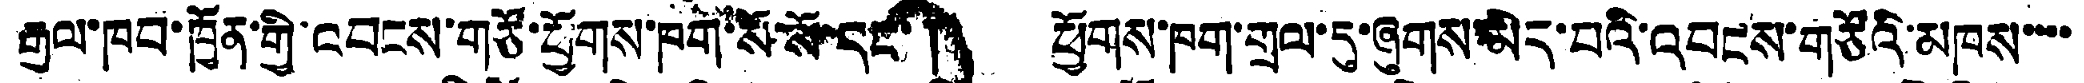རྒྱལ་ཁབ་ཁྱོན་གྱི་འབངས་གཙོ་ཕྱོགས་ཁག་སོ་སོ་དང་། ཕྱོགས་ཁག་གྲལ་དུ་ཞུགས་མེད་པའི་འབངས་གཙོའི་མཁས་་་་
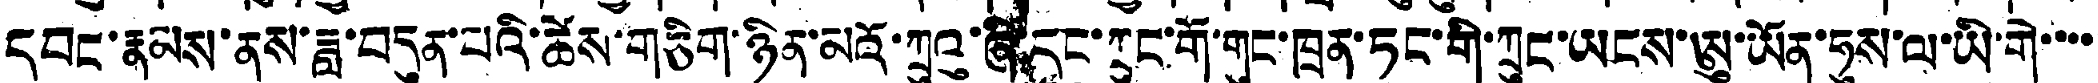དབང་རྣམས་ནས་ཟླ་བདུན་པའི་ཚེས་གཅིག་ཉིན་མའོ་ཀྲུའུ་ཞི་དང་ཀྲུང་གོ་གུང་ཁྲན་ཏང་གི་ཀྲུང་ཡངས་ཨུ་ཡོན་ཧུས་ལ་ཡི་གེ་་་་
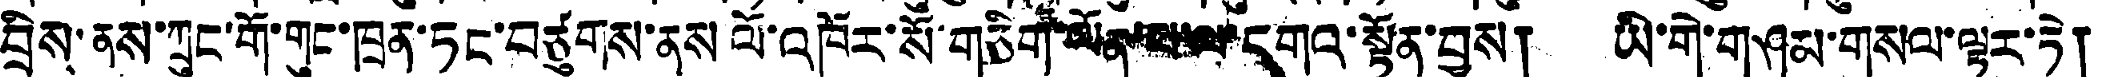བྲིས་ནས་ཀྲུང་གོ་གུང་ཁྲན་ཏང་བཙུགས་ནས ལོ་འཁོར་སོ་གཅིག་ལོན་པ་ལ་དགའ་སྟོན་བྱས། ཡི་གེ་གཤམ་གསལ་ལྟར་ཏེ།
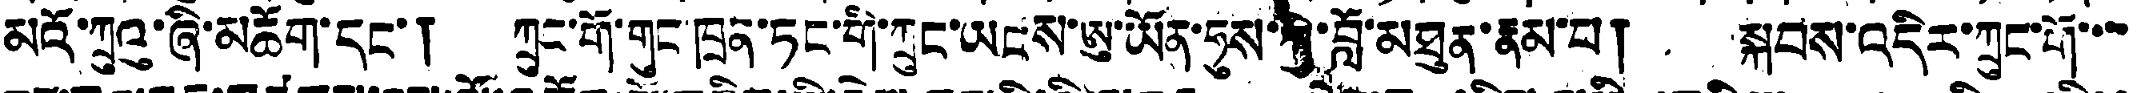མའོ་ཀྲུའུ་ཞི་མཆོག་དང་། ཀྲུང་གོ་གུང་ཁྲན་ཏང་གི་ཀྲུང་ཡངས་ཨུ་ཡོན་ཧུས་ཀྱི་བློ་མཐུན་རྣམ་པ། སྐབས་འདིར་ཀྲུང་གོ་་་་
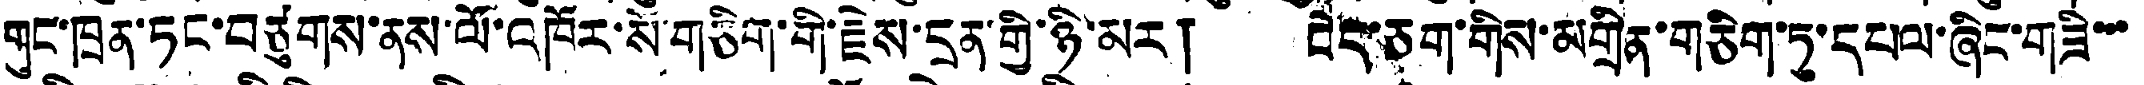གུང་ཁྲན་ཏང་བཙུགས་ནས་ལོ་འཁོར་ས་གཅིག་གི་རྗེས་དྲན་གྱི་ཉི་མར། བེད་ཅག་གིས་མགྲིན་གཅིག་ཏུ་དཔལ་ཞིང་གཟི་་་
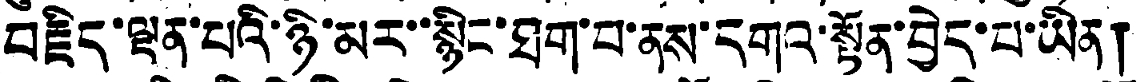བརྗིད་ལྡན་པའི་ཉི་མར་་སྙིང་ཐག་པ་ནས་དགའ་སྟོན་བྱེད་པ་ཡིན།
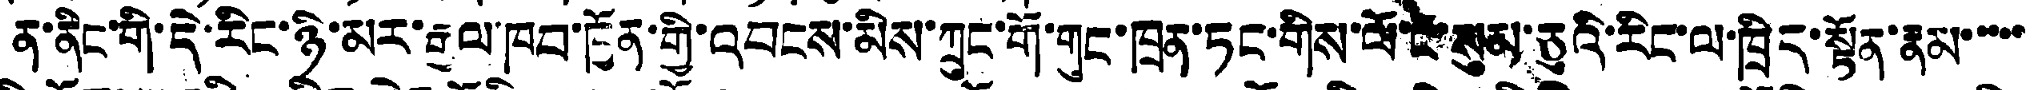ན་ནིང་གི་དེ་རིང་ཉི་མར་རྒྱལ་ཁབ་ཁྱོན་གི་འབངས་མིས་ཀྲུང་གོ་གུང་ཁྲན་ཏང་གིས་ལོ་ངོ་སུམ་ཅུའི་རིང་ལ་ཁྲིད་སྟོན་རྣམ་་་་་
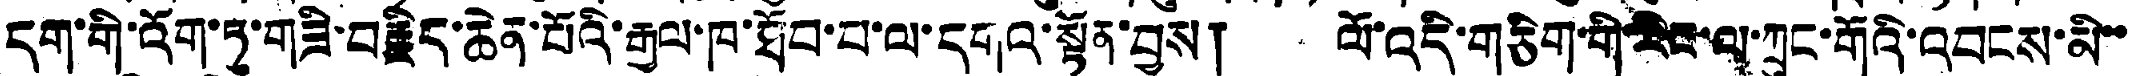དག་གི་འོག་ཏུ་གཟི་བརྗིད་ཆེན་པོའི་རྒྱལ་ཁ་ཐོབ་པ་ལ་དགའ་སྟོན་བྱས། ལོ་འདི་གཅིག་གི་རིང་ལ་ཀྲུང་གོའི་འབངས་མི་་
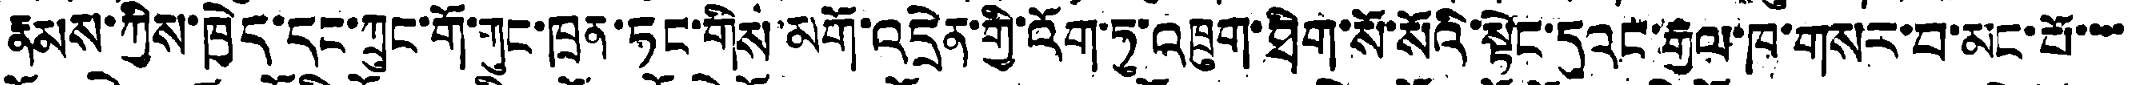རྣམས་ཀྱིས་ཁྱེད་དང་ཀྲུང་གོ་གུང་ཁྲན་ཏང་གིས་མགོ་འདྲེན་གྱི་འོག་ཏུ་འཁྲུག་ཐིག་སོ་སོའི་སྟེང་དུའང་རྒྱལ་ཁ་གསར་བ་མང་པོ་་་་
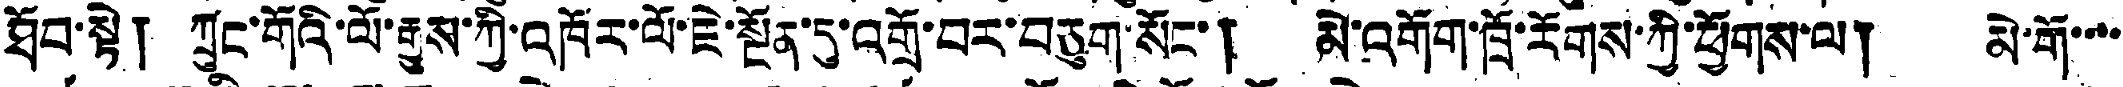ཐོབ་སྟེ། ཀྲུང་གོའི་ལོ་རྒྱུས་ཀྱི་འཁོར་ལོ་ཇེ་སྔོན་དུ་འགྲོ་བར་བཅུག་སོང་། མེ་འགོག་ཁྲོ་རོགས་ཀྱི་ཕྱོགས་ལ། མེ་གོ་་་་
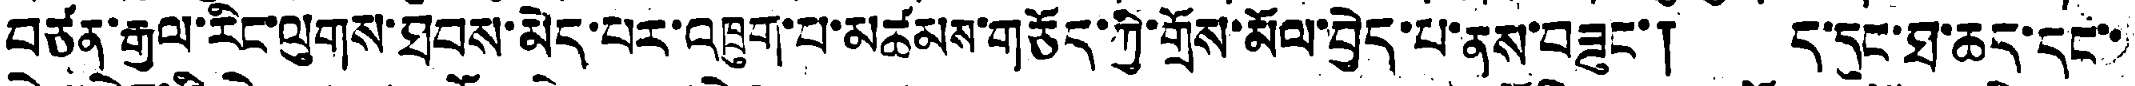བཙན་རྒྱལ་རིང་ལུགས་ཐབས་མེད་པར་འཁྲུག་པ་མཚམས་གཅོད་ཀྱི་གྲོས་མོལ་བྱེད་པ་ནས་བཟུང་། ད་དུང་ཐ་ཆད་དང་་
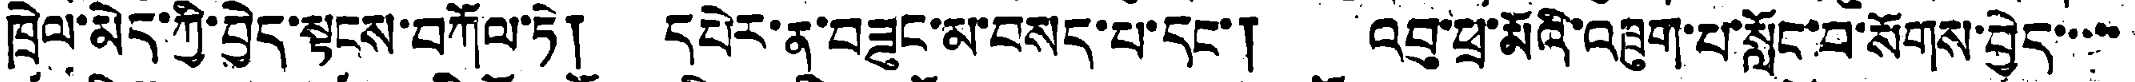ཁྲེལ་མེད་ཀྱི་བྱེད་སྟངས་བཀོལ་ཏེ། དཔེར་ན་བཟུང་མ་བསད་པ་དང་། འབུ་ཕྲ་མོའི་འཁྲུག་པ་སློང་བ་སོགས་བྱེད་་་་་
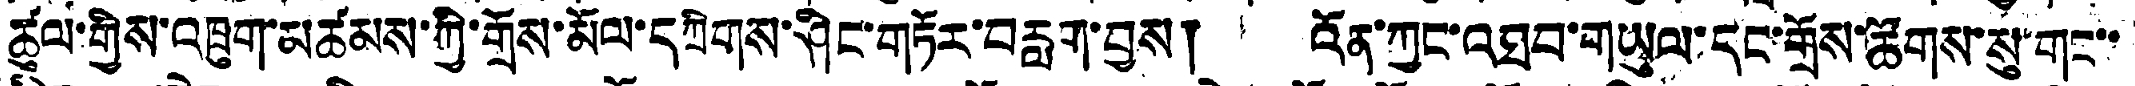ཚུལ་གྱིས་འཁྲུག་མཚམས་ཀྱི་གྲོས་མོལ་དཀྲིགས་ཤིང་གཏོར་བརླག་བྱས། འོན་ཀྱང་འཐབ་གཡུལ་དང་གྲོས་ཚོགས་སུ་གང་་
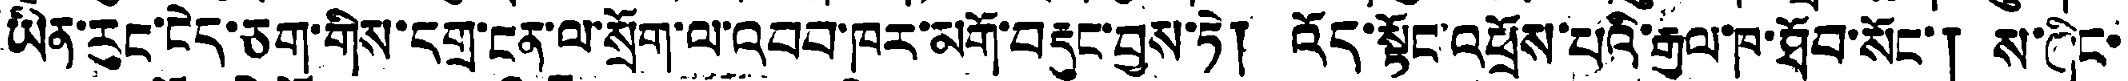ཡིན་རུང་ངེད་ཅག་གིས་དགྲ་ངན་ལ་སྲོག་ལ་འབབ་ཁར་མགོ་བརྡུང་བྱས་ཏེ། འོད་སྟོང་འཕྲོས་པའི་རྒྱལ་ཁ་ཐོབ་སོང་། ས་ཞིང་
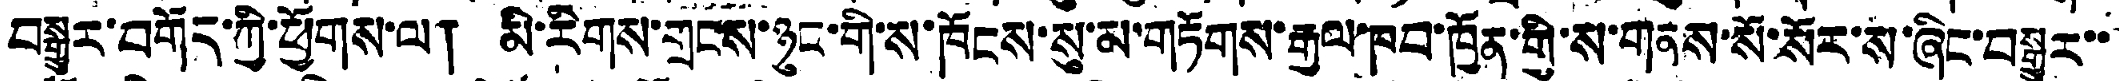བསྒྱུར་བགོད་ཀྱི་ཕྱོགས་ལ། མི་རིགས་གྲངས་ཉུང་གི་ས་ཁོངས་སུ་མ་གཏོགས་རྒྱལ་ཁབ་ཁྱོན་གྱི་ས་གནས་སོ་སོར་ས་ཞིང་བསྒྱུར་་
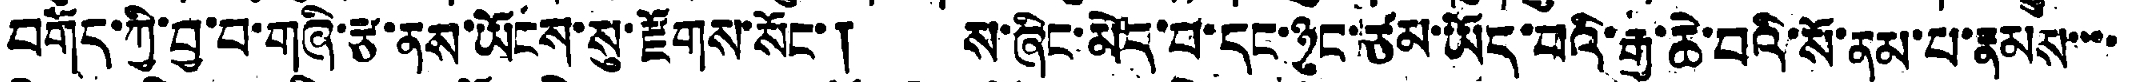བགོད་ཀྱི་བྱ་བ་གཞི་རྩ་ནས་ཡོངས་སུ་རྫོགས་སོང་། ས་ཞིང་མེད་པ་དང་ཉུང་ཙམ་ཡོད་པའི་རྒྱ་ཆེ་བའི་སོ་ནམ་པ་རྣམས་་་་
